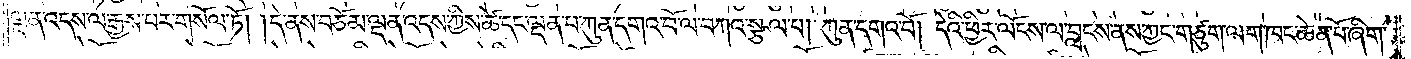ལྡན་འདས་ལ་རྒྱས་པར་གསོལ་ཏོ། །དེ་ནས་བཅོམ་ལྡན་འདས་ཀྱིས་ཚེ་དང་ལྡན་པ་ཀུན་དགའ་བོ་ལ་བཀའ་སྩལ་པ། ཀུན་དགའ་བོ། དེའི་ཕྱིར་ལོངས་ལ་བླངས་ནས་ཀྱང་གཙུག་ལག་ཁང་ཆེན་པོ་ཞིག་
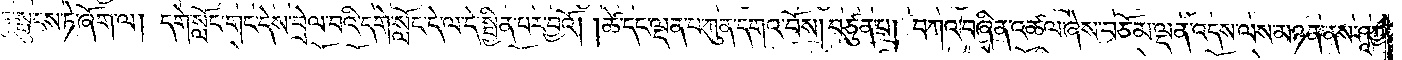ཏུ་སྤུངས་ཏེ་ཞོག་ལ། དགེ་སློང་གང་དེས་བྲེལ་བའི་དགེ་སློང་དེ་ལ་དེ་སྦྱིན་པར་བྱའོ། །ཚེ་དང་ལྡན་པ་ཀུན་དགའ་བོས། བཙུན་པ། བཀའ་བཞིན་འཚལ་ཞེས་བཅོམ་ལྡན་འདས་ལས་མཉན་ནས་ཤཱཀྱ་
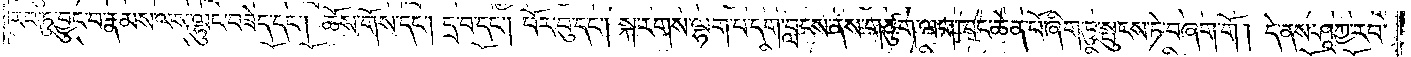རབ་ཏུ་བྱུང་བ་རྣམས་ལས་ལྷུང་བཟེད་དང༌། ཆོས་གོས་དང༌། དྲ་བ་དང༌། ཕོར་བུ་དང༌། སྐ་རགས་ལྷག་པ་དག་བླངས་ནས་གཙུག་ལག་ཁང་ཆེན་པོ་ཞིག་ཏུ་སྤུངས་ཏེ་བཞག་གོ། དེ་ནས་ཤཱཀྱ་རབ་
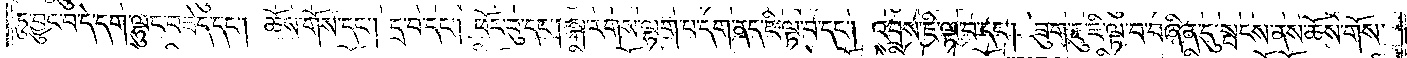ཏུ་བྱུང་བ་དེ་དག་ལྷུང་བཟེད་དང༌། ཆོས་གོས་དང༌། དྲ་བ་དང༌། ཕོར་བུ་དང༌། སྐ་རགས་ལྷག་པ་དག་ནད་ཇི་ལྟ་བ་དང༌། འབྲས་ཇི་ལྟ་བ་དང༌། ཟུག་རྔུ་ཇི་ལྟ་བ་བཞིན་དུ་སྤངས་ནས་ཆོས་གོས་
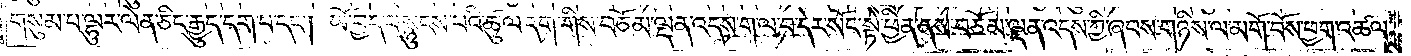གསུམ་པ་ལྷུར་ལེན་ཅིང་རྒྱུད་དག་པ་དང༌། ཡོ་བྱད་བསྙུངས་པའི་ཚུལ་དག་གིས་བཅོམ་ལྡན་འདས་ག་ལ་བ་དེར་སོང་སྟེ་ཕྱིན་ནས་བཅོམ་ལྡན་འདས་ཀྱི་ཞབས་གཉིས་ལ་མགོ་བོས་ཕྱག་འཚལ་
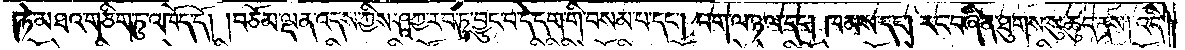ཏེ་མཐའ་གཅིག་ཏུ་འཁོད་དོ། །བཅོམ་ལྡན་འདས་ཀྱིས་ཤཱཀྱ་རབ་ཏུ་བྱུང་བ་དེ་དག་གི་བསམ་པ་དང༌། བག་ལ་ཉལ་དང༌། ཁམས་དང༌། རང་བཞིན་ཐུགས་སུ་ཆུད་ནས། འདི་
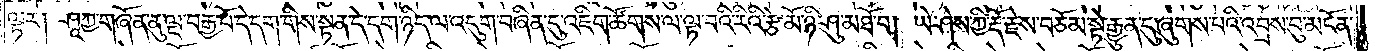ལྟར། ཤཱཀྱ་གཞོན་ནུ་ལྔ་བརྒྱ་པོ་དེ་དག་གིས་སྟན་དེ་དག་ཉིད་ལ་འདུག་བཞིན་དུ་འཇིག་ཚོགས་ལ་ལྟ་བའི་རིའི་རྩེ་མོ་ཉི་ཤུ་མཐོ་བ། ཡེ་ཤེས་ཀྱི་རྡོ་རྗེས་བཅོམ་སྟེ་རྒྱུན་དུ་ཞུགས་པའི་འབྲས་བུ་མངོན་
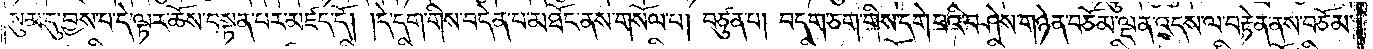སུམ་དུ་བྱས་པ་དེ་ལྟར་ཆོས་བསྟན་པར་མཛད་དོ། །དེ་དག་གིས་བདེན་པ་མཐོང་ནས་གསོལ་པ། བཙུན་པ། བདག་ཅག་གིས་དགེ་བའི་བཤེས་གཉེན་བཅོམ་ལྡན་འདས་ལ་བརྟེན་ནས་བཅོམ་
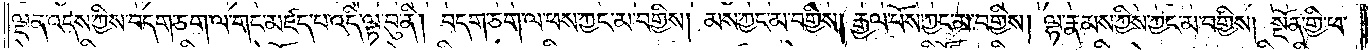ལྡན་འདས་ཀྱིས་བདག་ཅག་ལ་གང་མཛད་པ་འདི་ལྟ་བུ་ནི། བདག་ཅག་ལ་ཕས་ཀྱང་མ་བགྱིས། མས་ཀྱང་མ་བགྱིས། རྒྱལ་པོས་ཀྱང་མ་བགྱིས། ལྷ་རྣམས་ཀྱིས་ཀྱང་མ་བགྱིས། སྔོན་གྱི་ཕ་
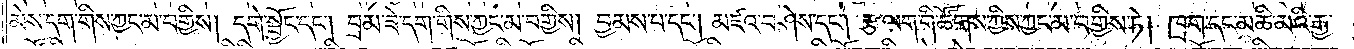མེས་དག་གིས་ཀྱང་མ་བགྱིས། དགེ་སྦྱོང་དང༌། བྲམ་ཟེ་དག་གིས་ཀྱང་མ་བགྱིས། བྱམས་པ་དང༌། མཛའ་བཤེས་དང༌། རྩ་ལག་གི་ཚོགས་ཀྱིས་ཀྱང་མ་བགྱིས་ཏེ། ཁྲག་དང་མཆི་མའི་རྒྱ་
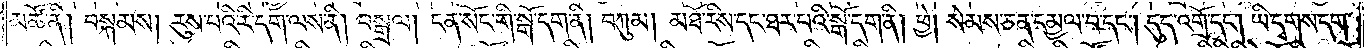མཚོ་ནི། བསྐམས། རུས་པའི་རི་དག་ལས་ནི། བསྒྲལ། ངན་སོང་གི་སྒོ་དག་ནི། བཀུམ། མཐོ་རིས་དང་ཐར་པའི་སྒོ་དག་ནི། ཕྱེ། སེམས་ཅན་དམྱལ་བ་དང༌། དུད་འགྲོ་དང༌། ཡི་དྭགས་དག་
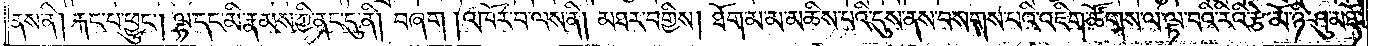ནས་ནི། རྐང་པ་ཕྱུང༌། ལྷ་དང་མི་རྣམས་ཀྱི་ནང་དུ་ནི། བཞག །འཁོར་བ་ལས་ནི། མཐར་བགྱིས། ཐོག་མ་མ་མཆིས་པའི་དུས་ནས་བསགས་པའི་འཇིག་ཚོགས་ལ་ལྟ་བའི་རིའི་རྩེ་མོ་ཉི་ཤུ་མཐོ་
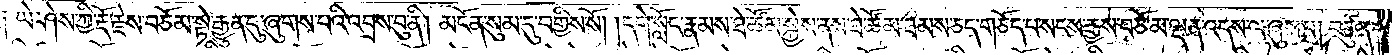བ༑ ཡེ་ཤེས་ཀྱི་རྡོ་རྗེས་བཅོམ་སྟེ་རྒྱུན་དུ་ཞུགས་པའི་འབྲས་བུ་ནི། མངོན་སུམ་དུ་བགྱིས་སོ། །དགེ་སློང་རྣམས་ཐེ་ཚོམ་སྐྱེས་ནས་ཐེ་ཚོམ་ཐམས་ཅད་གཅོད་པ་སངས་རྒྱས་བཅོམ་ལྡན་འདས་ལ་ཞུས་པ། བཙུན་
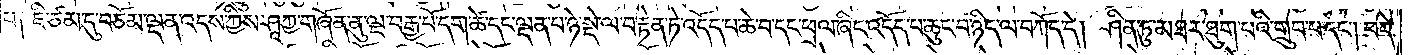པ༑ ཇི་ཙམ་དུ་བཅོམ་ལྡན་འདས་ཀྱིས་ཤཱཀྱ་གཞོན་ནུ་ལྔ་བརྒྱ་པོ་དག་ཚེ་དང་ལྡན་པ་ཉེ་སྡེ་ལ་བརྟེན་ཏེ་འདོད་པ་ཆེ་བ་དང་ཕྲལ་ཞིང་འདོད་པ་ཆུང་བ་ཉིད་ལ་བཀོད་དེ། ཤིན་ཏུ་མཐར་ཐུག་པའི་གྲུབ་པ་དང༌། བདེ་
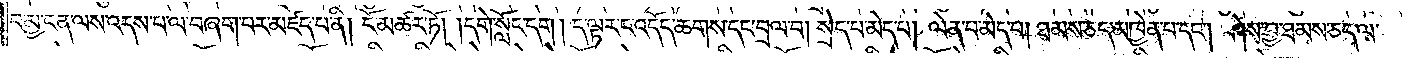བ་མྱ་ངན་ལས་འདས་པ་ལ་བཞག་པར་མཛད་པ་ནི། ངོ་མཚར་ཏོ། །དགེ་སློང་དག། ད་ལྟར་ང་འདོད་ཆགས་དང་བྲལ་བ། སྲེད་པ་མེད་པ། ལེན་པ་མེད་པ། ཐམས་ཅད་མཁྱེན་པ་དང༌། ཤེས་བྱ་ཐམས་ཅད་ལ་
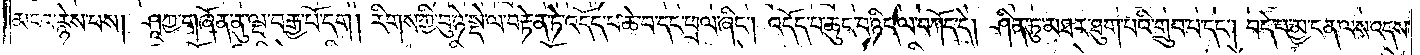མངའ་རྙེས་པས། ཤཱཀྱ་གཞོན་ནུ་ལྔ་བརྒྱ་པོ་དག། རིགས་ཀྱི་བུ་ཉེ་སྡེ་ལ་བརྟེན་ཏེ་འདོད་པ་ཆེ་བ་དང་ཕྲལ་ཞིང༌། འདོད་པ་ཆུང་བ་ཉིད་ལ་བཀོད་དེ། ཤིན་ཏུ་མཐར་ཐུག་པའི་གྲུབ་པ་དང༌། བདེ་བ་མྱ་ངན་ལས་འདས་
